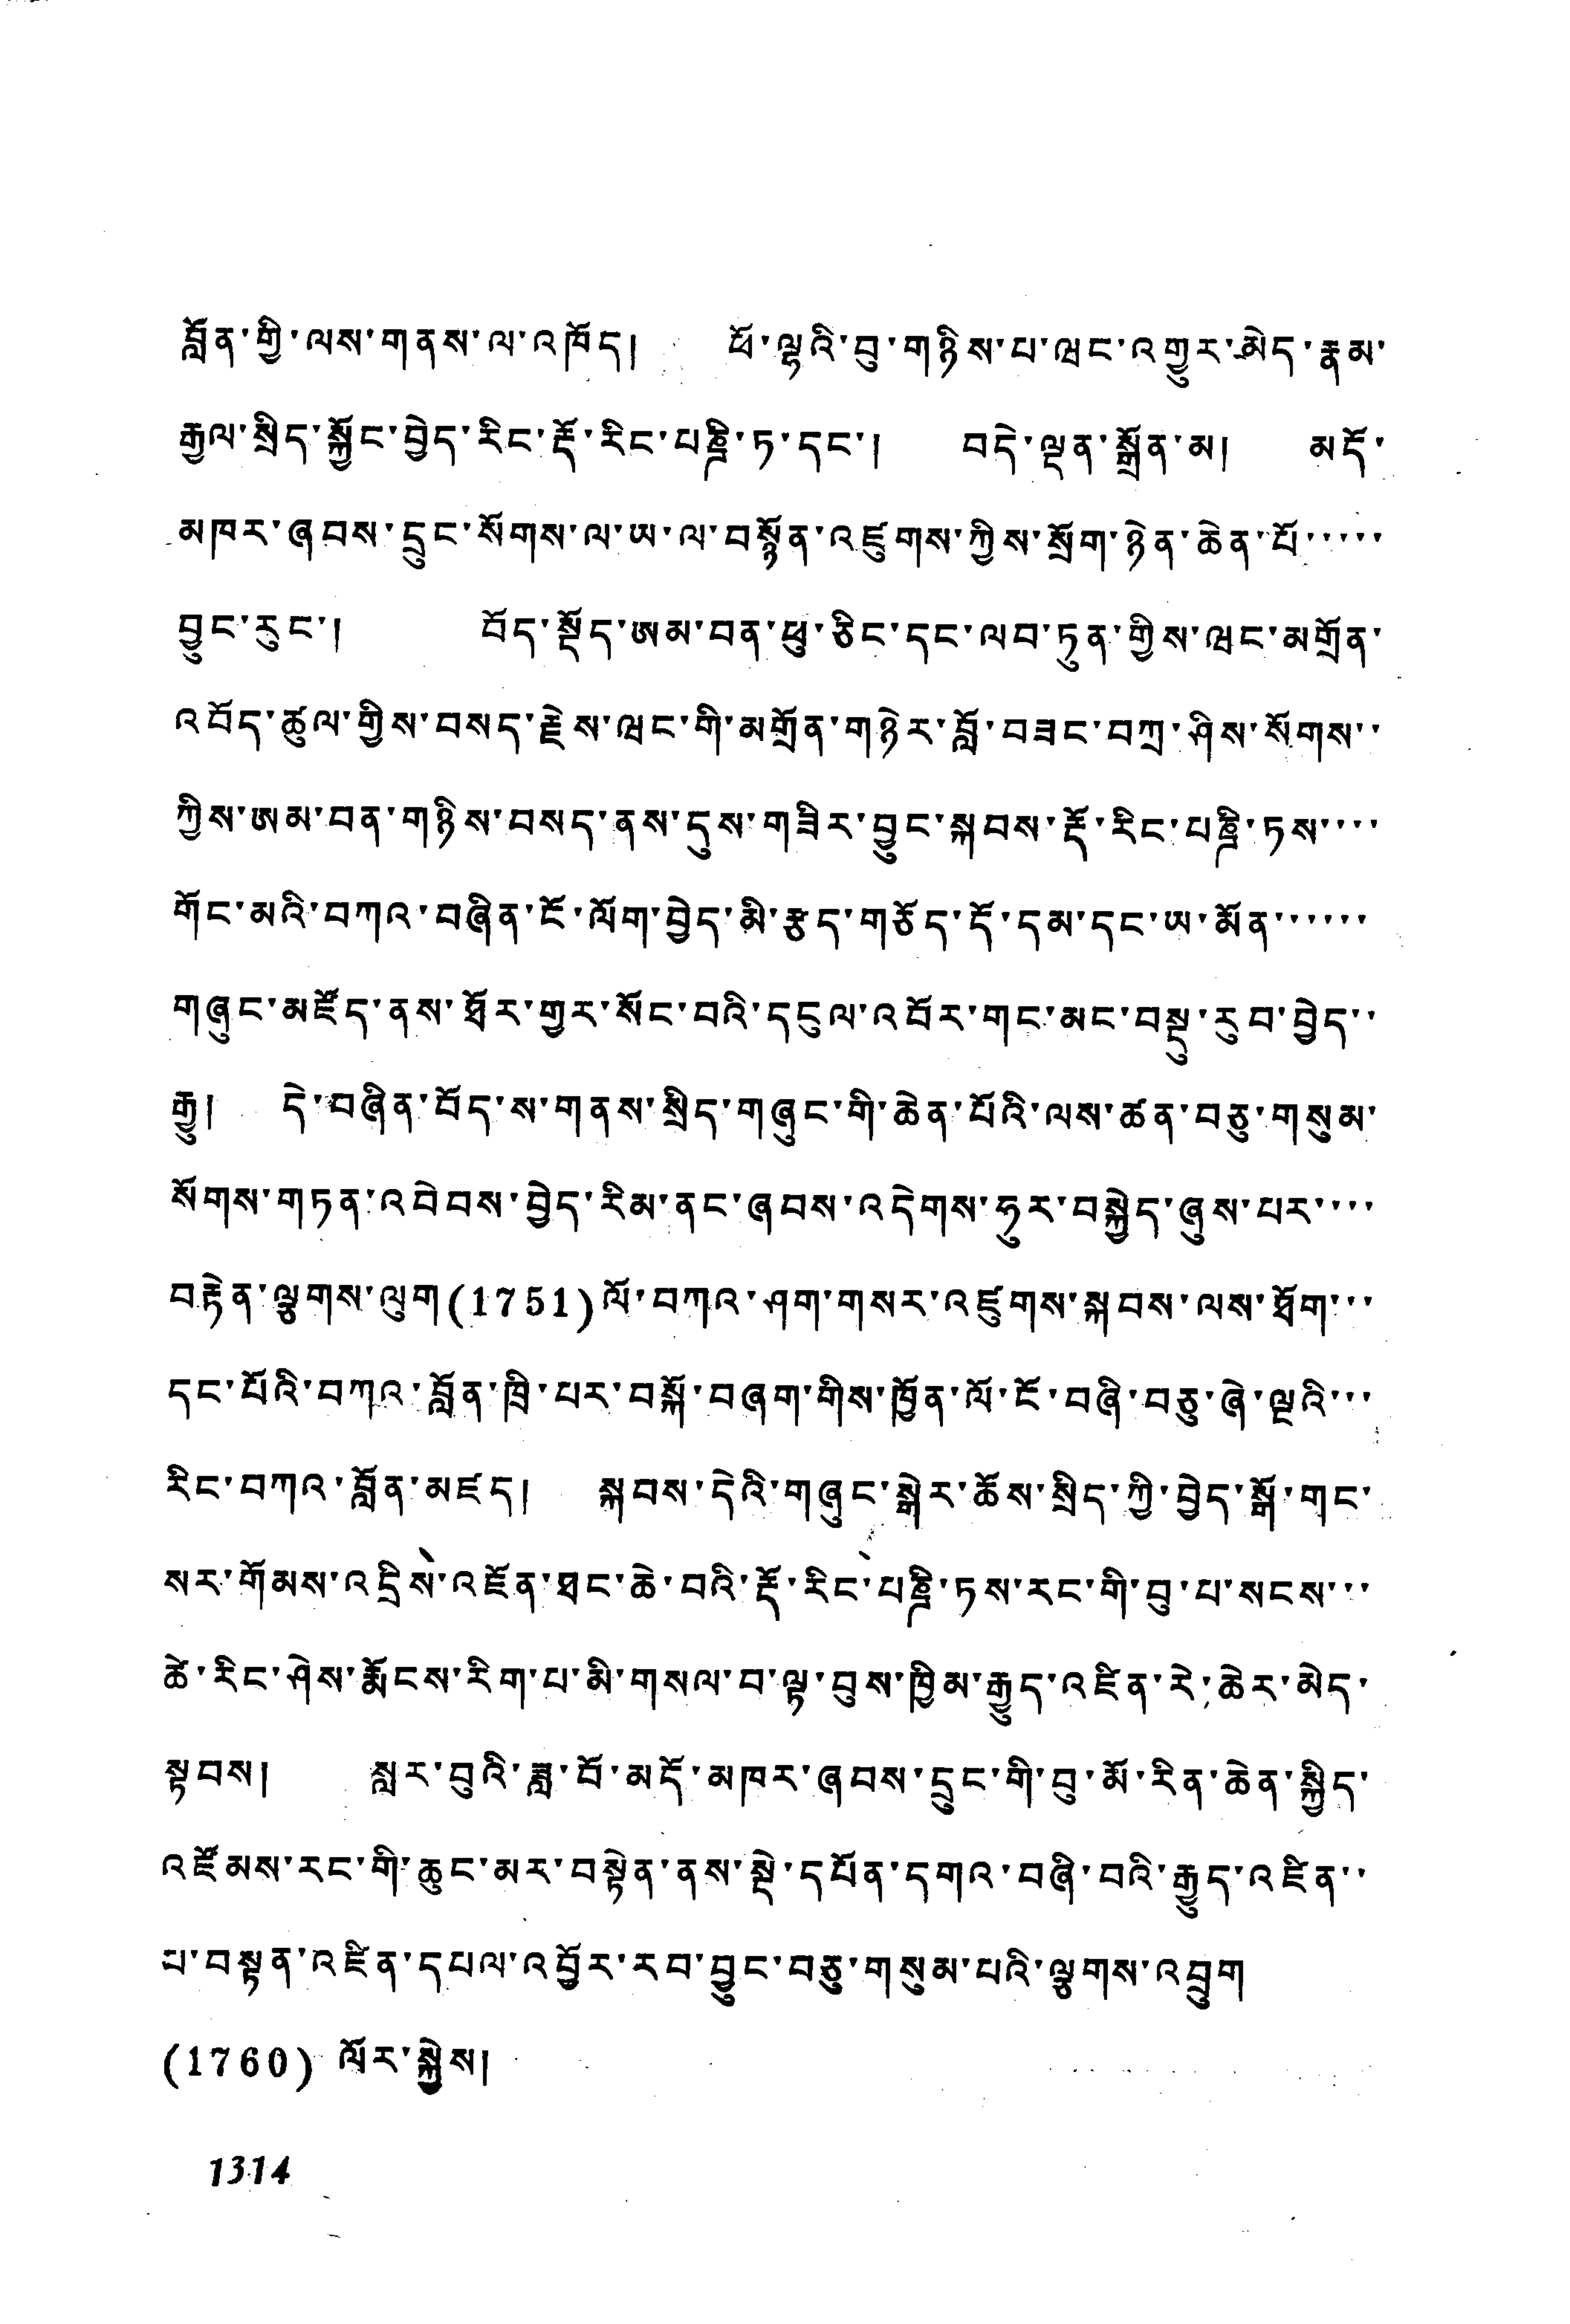བློན་གྱི་ལས་གནས་ལ་འཁོད། ཕོ་ལྷའི་བུ་གཉིས་པ་ཝང་འགྱུར་མེད་རྣམ་
རྒྱལ་སྲིད་སྐྱོང་བྱེད་རིང་རྡོ་རིང་པཎྜི་ཏ་དང་། བདེ་ལྡན་སྒྲོན་མ། མདོ་
མཁར་ཞབས་དྲུང་སོགས་ལ་ཡ་ལ་བསྟོན་འཛུགས་ཀྱིས་སྲོག་ཉེན་ཆེན་པོ་་་་་
བྱུང་རུང་། བོད་སྡོད་ཨམ་བན་ཕུ་ཅིང་དང་ལབ་ཏུན་གྱིས་ཝང་མགྲོན་
འབོད་ཚུལ་གྱིས་བསད་རྗེས་ཝང་གི་མགྲོན་གཉེར་བློ་བཟང་བཀྲ་ཤིས་སོགས་་
ཀྱིས་ཨམ་བན་གཉིས་བསད་ནས་དུས་གཟིར་བྱུང་སྐབས་རྡོ་རིང་པཎྜི་ཏས་་་་
གོང་མའི་བཀའ་བཞིན་ངོ་ལོག་བྱེད་མི་རྩད་གཅོད་དོ་དམ་དང་ཡ་མོན་་་་་་
གཞུང་མཛོད་ནས་ཐོར་གྱུར་སོང་བའི་དངུལ་འབོར་གང་མང་བསྔུ་རུབ་བྱེད་
རྒྱུ། དེ་བཞིན་བོད་ས་གནས་སྲིད་གཞུང་གི་ཆེན་པོའི་ལས་ཚན་བཅུ་གསུམ་
སོགས་གཏན་འབེབས་བྱེད་རིམ་ནང་ཞབས་འདེགས་ཧུར་བསྐྱེད་ཞུས་པར་་་་
བརྟེན་ལྕགས་ལུག (1751) ལོ་བཀའ་ཤག་གསར་འཛུགས་སྐབས་ལས་ཐོག་་་
དང་པོའི་བཀའ་བློན་ཁྲི་པར་བསྐོ་བཞག་གིས་ཁྱོན་ལོ་ངོ་བཞི་བཅུ་ཞེ་ལྔའི་་་
རིང་བཀའ་བློན་མཛད། སྐབས་དེའི་གཞུང་སྒེར་ཆོས་སྲིད་ཀྱི་བྱེད་སྒྲོ་གང་
སར་གོམས་འདྲིས་འཛོན་ཐང་ཆེ་བའི་རྡོ་རིང་པཎྜི་ཏས་རང་གི་བུ་པ་སངས་་་
ཚེ་རིང་ཤེས་རྨོངས་རིག་པ་མི་གསལ་བ་ལྟ་བུས་ཁྱིམ་རྒྱུད་འཛིན་རེ་ཆེར་མེད་
སྟབས། སླར་བུའི་ཟླ་བོ་མདོ་མཁར་ཞབས་དྲུང་གི་བུ་མོ་རིན་ཆེན་སྐྱིད་
འཛོམས་རང་གི་ཆུང་མར་བསྟེན་ནས་སྡེ་དཔོན་དགའ་བཞི་བའི་རྒྱུད་འཛིན་་
པ་བསྟན་འཛིན་དཔལ་འབྱོར་རབ་བྱུང་བཅུ་གསུམ་པའི་ལྕགས་འབྲུག
(1760) ལོར་སྐྱེས།
1314
